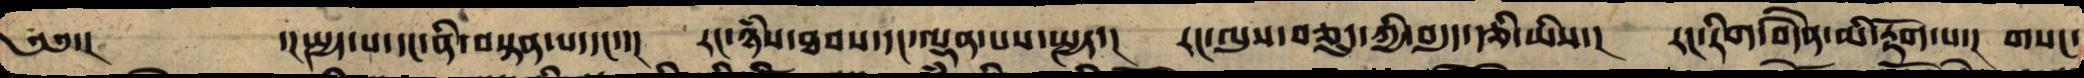༄༅་།           ་།སྤྱད་པ་དང་ནི་བསྟན་པ་དང་་། རང་ཉཾས་ཐབས་དང་ལྡན་པས་སྤྱད་། རང་ལུས་བཅུད་ཀྱི་བདུད་རྩི་ཡིས་། རང་རིག་བདེཻན་མི་རྟོག་པ་། གསང་
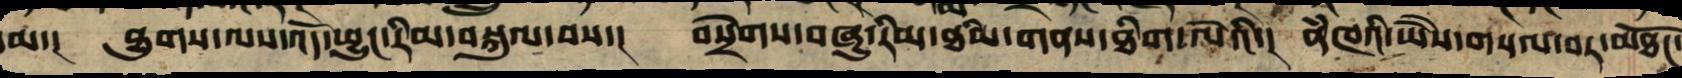མ་།  ཐུགས་ལས་འོད་ཕྱུང་རིམ་བསྐུལ་བས་།  བསྲེགས་བཞུ་རིམ་ཐིམ་གནས་ཐིག་ལེའི་།  ནཾཁའི་ཡཻས་གསལ་བར་མཐོང་
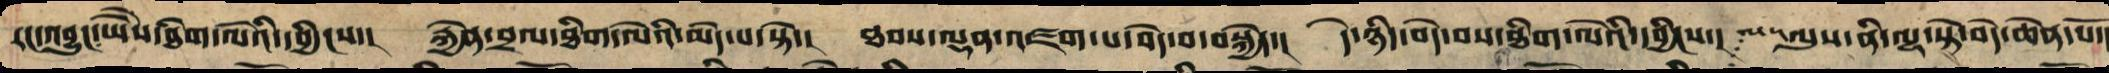རང་བྱུང་ཡཻས་ཐིག་ལེའི་དབྱིངས་།  རྐྱེན་བྲལ་ཐིག་ལེའི་མེད་པ་སྟེ་།  ཐབས་ལྡན་འཛག་པ་བདེ་བ་བསྐྱེད་།  དེ་ཉིད་བདེ་བས་ཐིག་ལེའི་དབྱིངས་།  ལུས་ནི་ལྷ་སྟེ་བདེ་ཆེན་པོ་
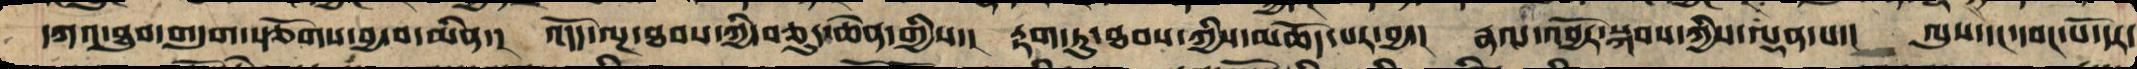དཀའ་ཐུབ་གདུག་སྩོགས་བྱ་བ་མིན་།  འདོད་ལྔ་ཐབས་ཀྱི་བཅུད་ཆེན་གྱིས་།  རྟག་ཏུ་ཐབས་ཀྱིས་མཆོད་པར་བྱ་།  རྣལ་འབྱོར་སྐབས་ཀྱིས་ལྡན་པ་།  ལུས་དང་དབང་པོ་དར་
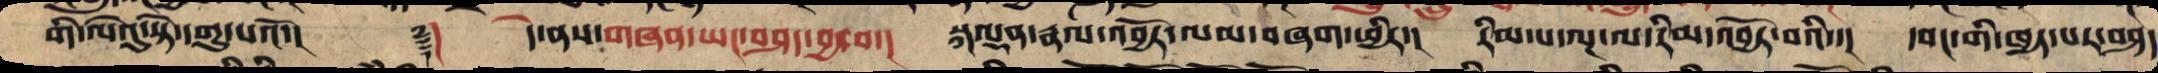གི་ལེའུ་སྟེ་དགུ་པའོ་།།        ༈།    དེ་ནས་གཞན་ཡང་བཤད་བྱ་བ་།  སྐལྡན་རྣལ་འབྱོར་ལམ་བཞག་ཕྱིར་།  རིམ་པ་ལྔ་ལ་རིམ་འབྱོར་བའི་་།  དབང་གི་ཁྱད་པར་བཤད
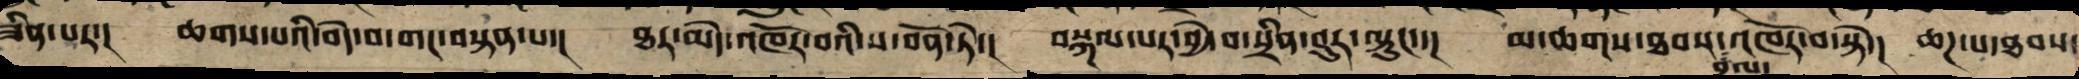ཟིན་པར་།  ཆགས་པའི་བདེ་བ་གང་བསྟན་པ་།  ཐར་མེད་འཁོར་བའི་ས་བོན་ཏེ་།  བསྐལ་པར་བྱེ་བ་སྲིན་བུར་ལྟུང་་།  མ་ཆགས་ཐབས་འཁོར་བ་སྟེ་།  ཆཌ་པ་ཐབས་
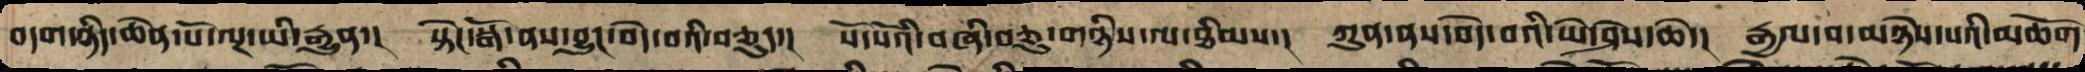བདག་ཉིད་ཆེན་པོ་ལྔ་ཡི་རྒྱུན་། སྟེང་སྒོ་ནས་བྱུང་བདེ་བའི་བཅུད་། སོ་སོའི་བཞི་བཅུ་གཉིས་ལ་ཐིམ་། ཀུན་ནས་བདེ་བའི་ཡེ་ཤེས་ཆེ་། རྒྱལ་བ་མཉེས་པའི་མཆོག
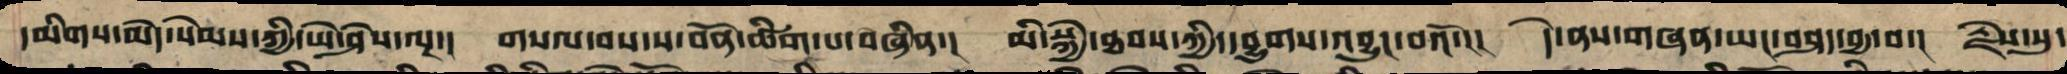དམིགས་མེད་སེམས་ཀྱི་ཡེ་ཤེས་ལྔ་།  གསལ་བས་ས་བོན་ཚིག་པ་བཞིན་།  མི་སྐྱེ་ཐབས་ཀྱི་དབུགས་འབྱུང་བའོ་།  དེ་ནས་གཞན་ཡང་བཤད་བྱ་བ་།  རྗེས་སུ་
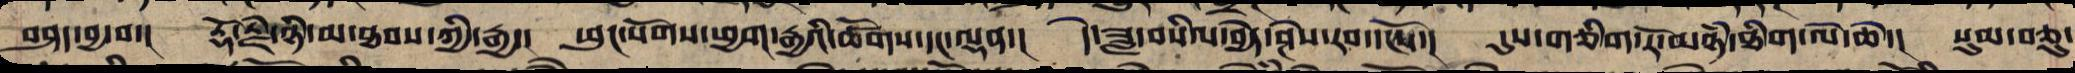བཤད་བྱ་བ་།  རྡོ་རྗེ་ཉི་མ་ཐབས་ཀྱི་རྒྱ་།  ཕུང་སོགས་ཕྱག་རྒྱའི་ཚོགས་དང་ལྡན་།  དེ་ཟླ་བསིལ་བྱེད་ཤེས་རབ་དངོས་།  དུས་གཅིག་རོ་མཉཾ་ཐིག་ལེ་ཆེ་།  སུམ་བཅུ་
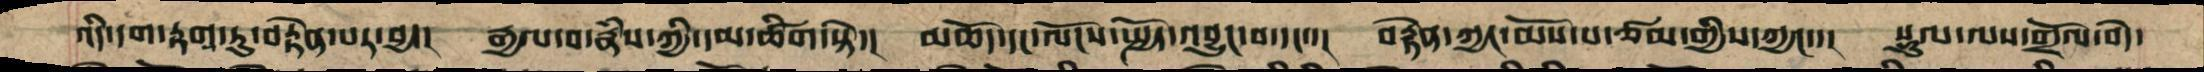འདི་དག་རྟག་ཏུ་བརྟེན་པར་བྱ་།  རྒྱལ་བ་རྣཾས་ཀྱི་དམ་ཚིག་སྟེ་། མཆོད་དང་ལོངས་སྤྱོད་འབྱུང་བ་དང་་། བརྟེན་ཀྱང་མོས་པ་ཙམ་གྱིས་ཀྱང་་། སྡུལ་ལས་གྲོལ་བདེ་
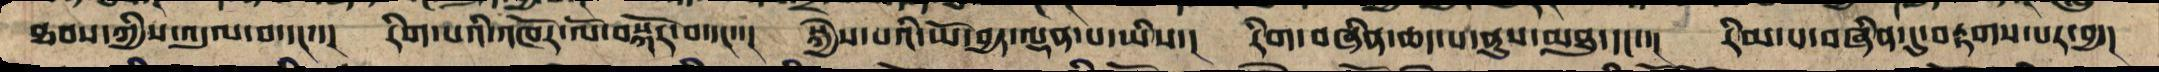ཐབས་ཀྱིས་འདུལ་བ་དང་་། རིག་པའི་འཁོར་ལོ་བསྐོར་བ་དང་་། སྐྱེས་པའི་ཡོ་བྱད་ལྡན་པ་ཡིས་། རིག་བཞིན་ཆད་པ་ནུས་མཐུ་དང་་། རིམ་པ་བཞིན་དུ་བརྟགས་པར་བྱ་།
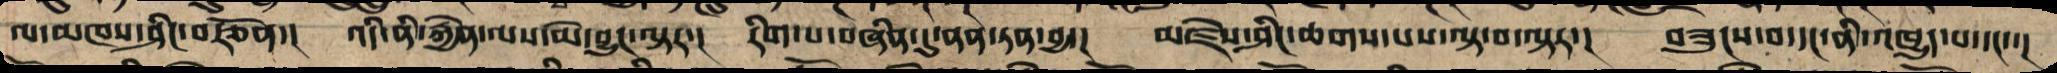ལ་མཁས་ཤིང་བརྩོན་། འདི་ནི་རྐྱེན་ལས་མེ་བྱུང་ལྟར་། རིག་པ་བཞིན་དུ་ནན་ཏན་བྱ་། མཛེས་ཤིང་ཆགས་པས་ལྟ་བ་ལྟར་། བཟུངས་བ་དང་ནི་འཁྱུད་པ་དང་་།
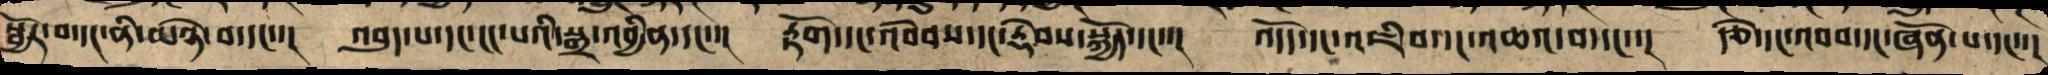སྦྱོར་བ་དང་ནི་མཉེ་བ་དང་། འབུད་དང་ངང་པའི་སྒྲ་འབྱིན་དང་་། རྟོག་དང་འབེབས་དང་རྡེབས་སྐྱོད་དང་་། འདོད་དང་འཇིབ་དང་འཆའ་བ་དང་་། རྩེ་དང་འབབ་དང་ཞོན་པ་དང་།
